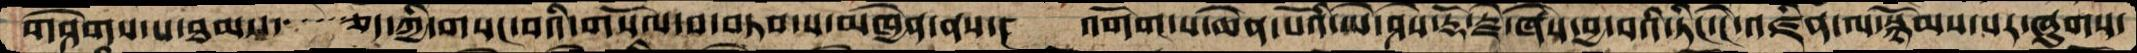གཤེགས་པ་ཐམས་   ཅད་ཀྱི་གསང་བའི་གསོལ་པ་བཏབ་པ་མཁྱེན་ནས་།  འགོག་པ་ཆེན་པོའི་ཡེ་ཤེས་རྡོ་རྗེ་ཞེས་བྱ་བའི་ཏིང་ངེ་འཛིན་ལ་སྙོམས་པར་ཞུགས་
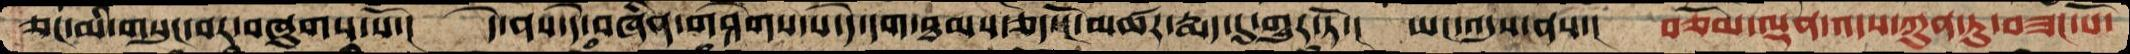ཅང་མི་གསུང་བར་བཞུགས་སོ་།   དེ་ནས་དེ་བཞིན་གཤེགས་པ་དེ་དག་ཐམས་ཅད་ངོ་མཚར་རྨད་དུ་གྱུར་ཏོ་།  ཡང་འདུས་ནས་།  བཅོམ་ལྡན་འདས་ཀུན་ཏུ་བཟང་པོ་
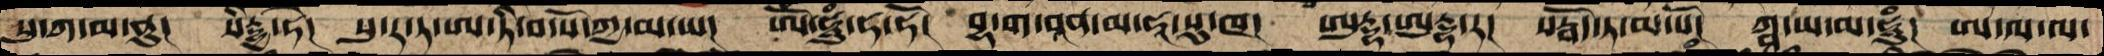སུ་ཀ་མ་ནུ།  སིརྡྷྱ་ཧེ།  སུ་ར་ཏ་ཨ་ཏི་བ་སོ་ཀྱ་མ་ཡ།  ཨོཾ་ཧཱུཾ་ཧ་ཧོ།  བྷ་ག་བཱན་མ་ཧཱ་སུ་ཁ། ཨུཏྡྷ་ཨུཏྡྷ་ར།  སརྦོད་ཏ་མ་སོོ། ཀྴ་ཡ་མ་ཧཱུཾ།  ཨ་ལ་ལ་
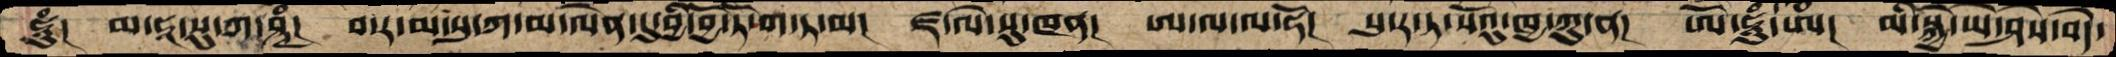ཧཱུཾ།  མ་ཧཱ་སུ་ཀ་ཤྚཾ།  བ་ར་མ་སུ་ཀ་མ་ལེན་དུ་བྱི་བྱོ་ཏོ་ག་ཏ་མ།  ཛ་ལེ་སུ་ཁན། ཨ་ལ་ལ་ཧོ།  སུ་ར་ཏ་སོའུ་ཁྱ་ཀུ་ན།  ཨོཾ་ཧཱུཾ་ཨཾ།  མི་སྐྱེ་ཡེ་ཤེས་བདེ་
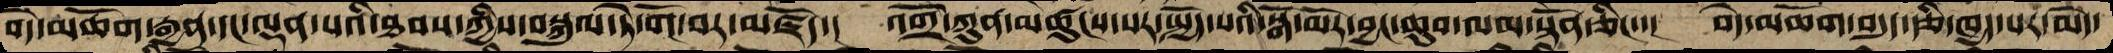བདེ་མཆོག་རྒྱན་དང་ལྡན་པའི་ཐབས་ཀྱིས་བསྐུལ་ཏེ་གོ་བར་མཛོད་།  འགྲོ་ཀུན་མཚུངས་པར་སྤྱོད་པའི་སྒོ་མོར་བྱང་ཆུབ་ལམ་སྟོན་ཅིང་་།  བདེ་མཆོག་བདུད་རྩི་ཁྱད་པར་མེད་
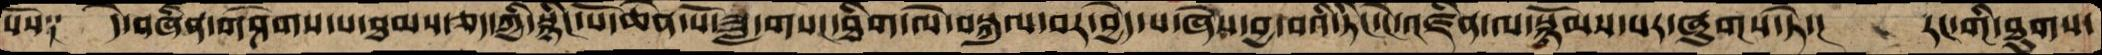པོས༑  དེ་བཞིན་གཤེགས་པ་ཐམས་ཅད་ཀྱི་སྙིང་པོ་ཆེན་པོ་ཟླ་གསང་ཐིག་ལེ་བསྐུལ་བར་བྱེད་པ་ཞེས་བྱ་བའི་ཏིང་ངེ་འཛིན་ལ་སྙོམས་པར་ཞུགས་ཏེ་།  རང་གི་ཐུགས་
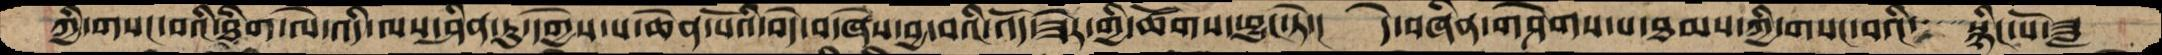ཀྱི་གསང་བའི་ཐིག་ལེ་འདི་ལས་ཤིན་ཏུ་དགྱེས་པ་ཆེན་པོའི་བདེ་བ་ཞེས་བྱ་བའི་འོད་ཟེར་གྱི་ཚོགས་ཕྱུང་ཏེ་།  དེ་བཞིན་གཤེགས་པ་ཐམས་ཀྱི་གསང་བའི་   སྙིང་པོ་ཟླ
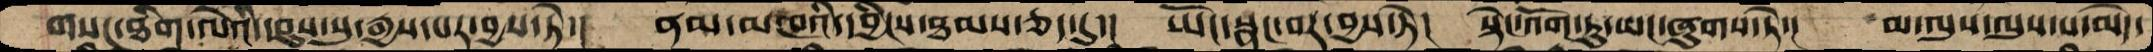གསང་ཐིག་ལེའི་དབུས་སུ་རྒྱས་པར་བྱས་ཏེ་།  ནམ་མཁའི་དབྱིངས་ཐམས་ཅད་དུ་།  ཡོང་སྣང་བར་བྱས་ཏེ་།  སྟེང་འོག་ཏུ་ཡང་ཞུགས་ཏེ་།  མ་ལུས་ལུས་པ་མེད་
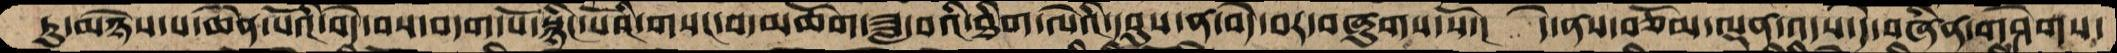ཏུ་མཉེས་པ་ཆེན་པོའི་བདེ་བས་བདག་པོ་སྙིང་པོའི་གསང་བ་མཆོག་ཟླ་བའི་ཐིག་ལེའི་དབུས་ན་བདེ་བར་བཞུགས་སོ་།  དེ་ནས་བཅོམ་ལྡན་འདས་དེ་བཞིན་གཤེགས་
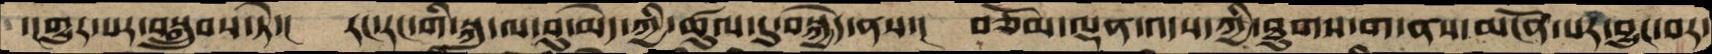་།གྱུར་པར་བསྒྲུབས་ཏེ་།  རང་རང་གི་སྐུ་ལ་བུ་མེད་ཀྱི་ཚུལ་དུ་བསྐྱེད་ནས་།  བཅོམ་ལྡན་འདས་ཀྱི་ཐུགས་ག་ནས་མངོན་པར་བྱུང་བར་
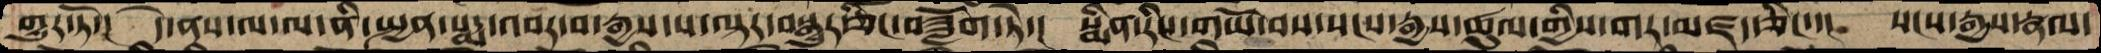གྱུར་ཏོ་།  དེ་ནས་ལ་ལ་ནི་སྤྱན་པདྨ་འབར་བ་རྒྱས་པ་ལྟར་བསྒྱུར་ཅིང་བཟློག་ཏེ་།  སྨིན་རིང་གཡོ་བས་སངས་རྒྱས་ཚུལ་གྱིས་གར་མཛད་ཅིང་་།  སངས་རྒྱས་རྣལ་
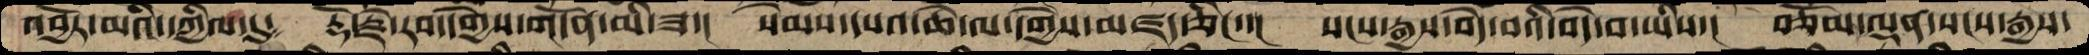འབྱོར་མའི་དཀྱིལ་དུ༴  རྡོ་རྗེ་རབ་དགྱེས་གདོན་མི་ཟ་།  སེམས་དཔའ་ཆེ་ལ་དགྱེས་མཛད་ཅིང་་།  སངས་རྒྱས་བདེ་བའི་བདེ་བ་ཡིས་།  བཅོམ་ལྡན་སངས་རྒྱས་
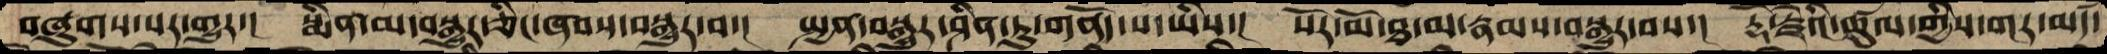བཞུགས་པར་གྱུར་།  སྨིན་མ་བསྒྱུར་ཅིང་ཞབས་བསྒྱུར་བ་།  སྤྱན་བསྒྱུར་ཤིན་ཏུ་གནོད་པ་ཡིས་།  སོར་མོ་ཐ་མ་རྣམས་བསྒྱུར་བས་།  རྡོ་རྗེའི་ཚུལ་གྱིས་གར་མཛད་
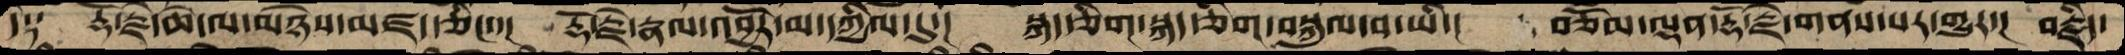དེ༑  རྡོ་རྗེ་ཆེ་ལ་མཉེས་མཛད་ཅིང་་།  རྡོ་རྗེ་རྣལ་འབྱོར་མ་དཀྱིལ་དུ་།  སྐད་ཅིག་སྐད་ཅིག་བསྐུལ་བ་ཡི་།  བཅོམ་ལྡན་རྡོ་རྗེ་གནས་པར་གྱུར་།  བརྗིད་
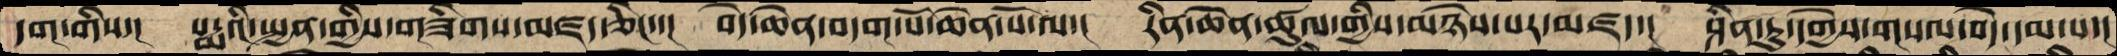དག་གིས་།  པདྨའི་སྤྱན་གྱིས་གཟིགས་མཛད་ཅིང་་།  བདེ་ཆེན་བདག་པོ་ཆེན་པོ་ལ་།  རིན་ཆེན་ཚུལ་གྱིས་མཉེས་པར་མཛད་།  ཤིན་ཏུ་དགྱེས་གསལ་བདེ་དམ་པ་།
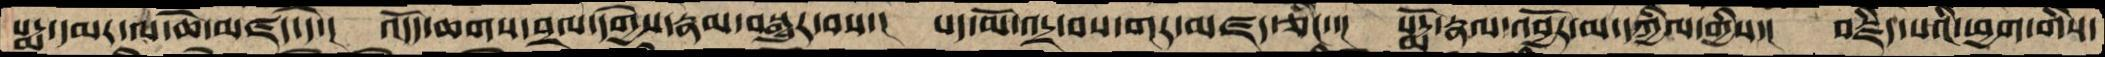པདྨ་དམར་ལ་ཆེ་མཛད་དེ་།  འདོད་ཆགས་བྲལ་དགྱེས་རྣམ་བསྒྱུར་བས་།  པད་མོ་འདྲ་བས་གར་མཛད་ཅིང་་།  པདྨོ་རྣལ་འབྱོར་མ་དཀྱིལ་གྱིས་།  བརྗིད་པའི་ཕྱག་གིས་
